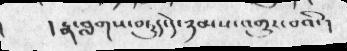།  རྣ་བླགས་བཏུད་དེ་ཉམས་འགྱུར་བའི་།
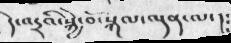དེ་འདྲའི་སྐྱེ་བོ་སྐལ་ལྡན་ལ་། ༴
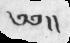༄༅།།
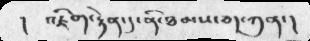།  འཇིག་རྟེན་དུ་ནི་ཐམས་ཅད་ཀུན་།
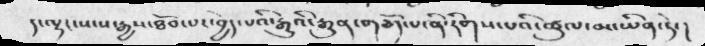ད་ལྟང་སངས་རྒྱས་ཐོབ་པར་བྱེད་པའི་རྒྱུའི་རྒྱུན་གཅོད་པ་ནི་རིགས་པའི་ཚུལ་མ་ཡིན་ཏེ་།
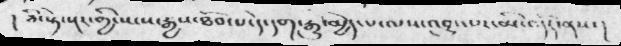། ཅི་སྟེ་སྔར་གྱི་སངས་རྒྱས་ཐོབ་པ་དེ་དག་རྒྱུ་མྱེད་པ་ལས་འབྱུང་པར་མི་འདོད་ནས་།
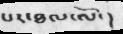པར་ཐལ་ལོ་།
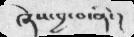ཞེས་བྱ་བ་ནི་ །
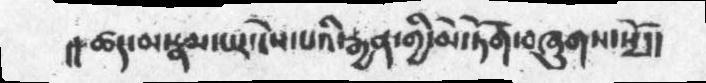།།ཚད་མ་རྣམ་པར་ངེས་པའི་རྒྱན་གྱི་མེ་ཏོག་བཞུགས་སྭོ།།
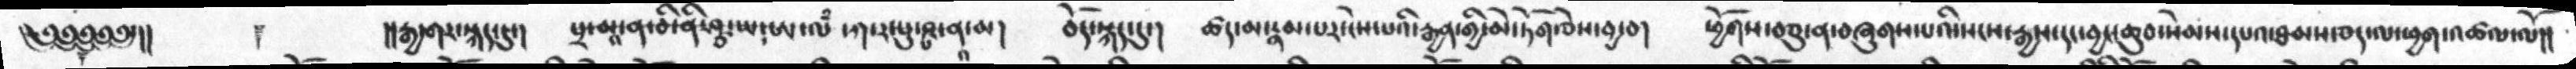༄༅༅༅༅།།     ༈    །།རྒྱ་གར་སྐད་དུ་།  པྲ་མཱ་ན་བི་ནི་ཤྩ་ཡ་ཨ་ལཾ་ ཀ་ར་པུ་ཥྤ་ནཱ་མ།  བོད་སྐད་དུ་།  ཚད་མ་རྣམ་པར་ངེས་པའི་རྒྱན་གྱི་མེ་ཏོག་ཅེས་བྱ་བ།  ཕྱོགས་བཅུ་ན་བཞུགས་པའི་སངས་རྒྱས་དང་བྱང་ཆུབ་སེམས་དཔའ་ཐམས་ཅད་ལ་ཕྱག་འཚལ་ལོ།།
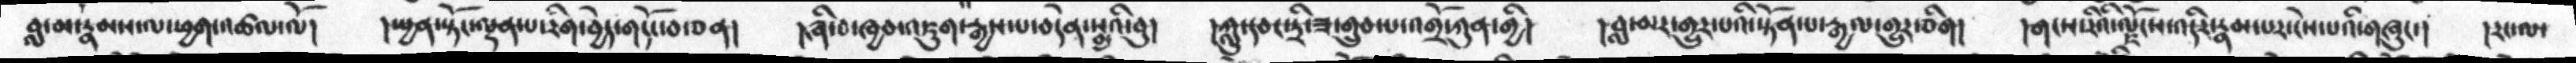བླ་མ་རྣམས་ལ་ཕྱག་འཚལ་ལོ།  །སྤྱན་སྟོང་ལྡན་པ་རིག་བྱེད་གདོང་བ་ཅན།  །ཞི་བ་ཁྱབ་འཇུག་རྒྱས་པ་བདེན་སྨྲའི་བུ།  །ཀླུ་དབང་དྲི་ཟ་གྲུབ་པ་འགྲོ་ཀུན་གྱི།  །བླ་མར་གྱུར་པའི་སྟོན་པ་རྒྱལ་གྱུར་ཅིག།  །གངས་རིའི་ལྗོངས་འདིར་རྣམ་པར་ངེས་པའི་གཞུང་།  །རང་ལ་
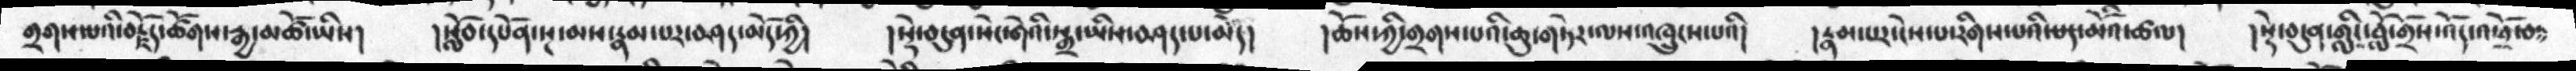གྲགས་པའི་བརྗོད་ཚོགས་རྒྱ་མཚོ་ཡིས།  །སློབ་དཔོན་སྔ་མས་རྣམ་པར་བཤད་མོད་ཀྱི།  །སྡེ་བདུན་སེང་གེའི་སྒྲ་ཡིས་བཤད་པ་མེད།  །ཆོས་ཀྱི་གྲགས་པའི་ཆུ་གཏེར་ལས་འཁྲུངས་པའི།  །རྣམ་པར་ངེས་པ་རིགས་པའི་པད་མོའི་ཚལ།  །སྡེ་བདུན་གླིང་བློ་གྲོས་འོད་འཕྲོ་བ
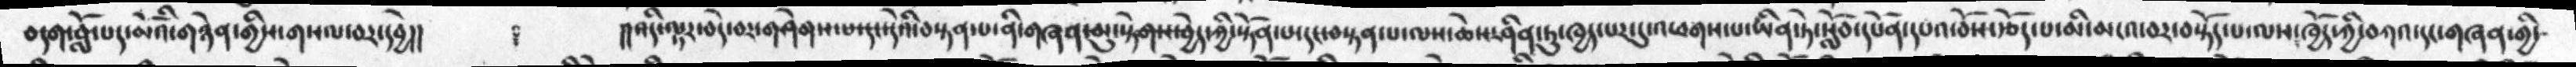བདག་བློ་པད་མོའི་གཉེན་གྱིས་གསལ་བར་དབྱེ།།    ༈   །།འདི་ལྟར་བདེ་བར་གཤེགས་པ་དང་དེའི་བསྟན་པ་ནི་གཞན་མུ་སྟེགས་བྱེད་ཀྱི་སྟོན་པ་དང་བསྟན་པ་ལས་ཆེས་ཤིན་ཏུ་ཁྱད་པར་དུ་འཕགས་པ་ཡིན་ཏེ་སློབ་དཔོན་དཔའ་བོས་རྩོད་པ་མི་མངའ་བར་བསྟོད་པ་ལས་ཁྱོད་ཀྱི་བཀའ་དང་གཞན་གྱི་
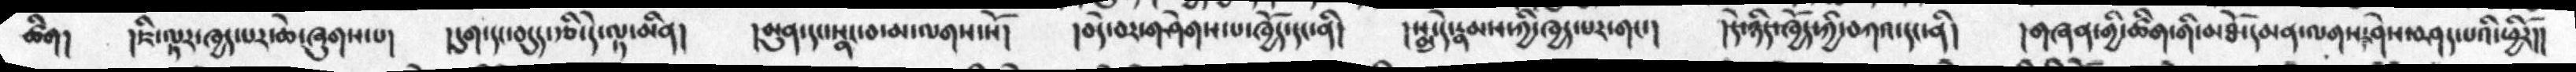ཚིག།  །ཇི་ལྟར་ཁྱད་པར་ཆེ་ཞུགས་པ།  །དུག་དང་བདུད་རྩི་དེ་ལྟ་མིན།  །མུན་དང་སྣང་བ་མ་ལགས་སོ།  །བདེ་བར་གཤེགས་པ་ཁྱོད་དང་ནི།  །སྨུ་དེ་རྣམས་ཀྱི་ཁྱད་པར་གང་།  །དེ་ཉིད་ཁྱོད་ཀྱི་བཀའ་དང་ནི།  །གཞན་གྱི་ཚིག་གི་མཐོ་དམན་ལགས་ཤེས་བཤད་པའི་ཕྱིརོ།།
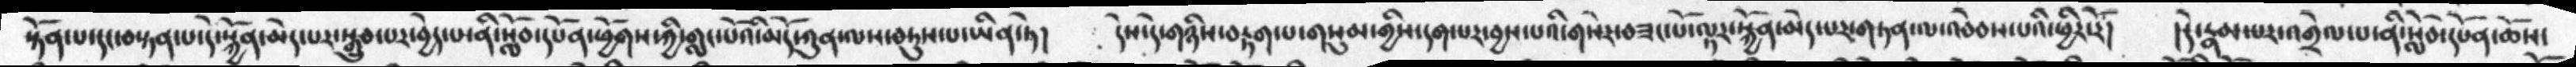སྟོན་པ་དང་བསྟན་པ་དེ་སྐྱོན་མེད་པར་སྒྲུབ་པར་བྱེད་པ་ནི་སློབ་དཔོན་ཕྱོགས་ཀྱི་གླང་པོའི་མདོ་ཀུན་ལས་བཏུས་པ་ཡིན་ཏེ།  དེས་དེ་གཉིས་བརྟག་པ་གསུམ་གྱིས་དག་པར་བྱས་པའི་གསེར་བཟང་པོ་ལྟར་སྐྱོན་མེད་པར་གཏན་ལ་འབེབས་པའི་ཕྱིར་རོ།  །དེ་རྣམ་པར་འགྲེལ་པ་ནི་སློབ་དཔོན་ཆོས་
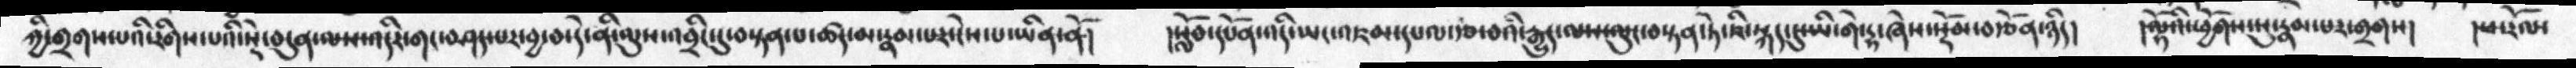ཀྱི་གྲགས་པའི་རིགས་པའི་སྡེ་བདུན་ལས་འདིར་གང་བཤད་པར་བྱ་བ་དེ་ནི་ལུས་འབྲིང་དུ་བསྟན་པ་ཚད་མ་རྣམ་པར་ངེས་པ་ཡིན་ནོ།  །སློབ་དཔོན་འདི་ཡང་འཇམ་དཔལ་རྩ་བའི་རྒྱུད་ལས་ལུང་བསྟན་ཏེ་ཇི་སྐད་དུ་ཡི་གེ་དྷ་ཞེས་སྡོམ་བརྩོན་ཉིད།  །ལྷོའི་ཕྱོགས་སུ་རྣམ་པར་གྲགས།  །ཕ་རོལ་
